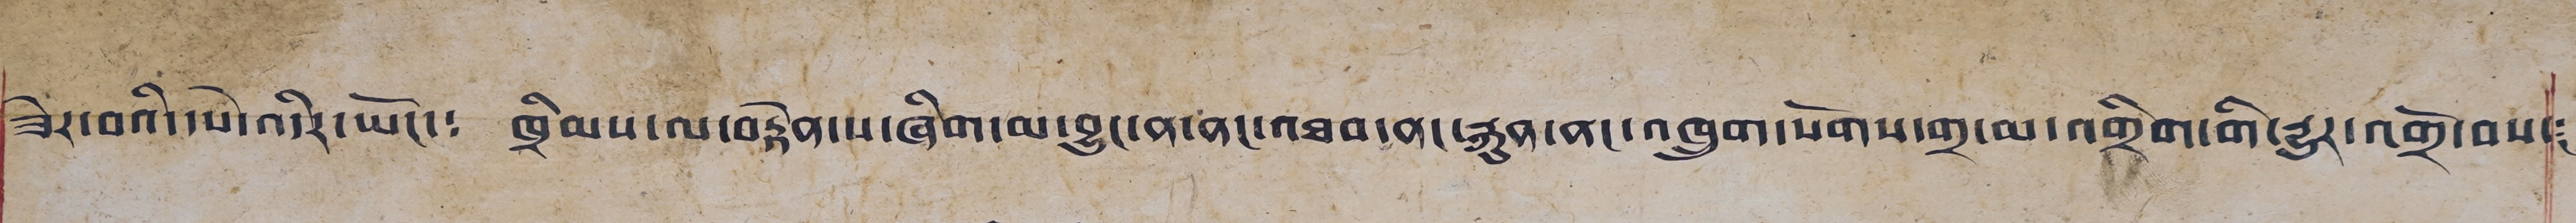ཟེར་བའི་དཔེ་འདིར་ཡོང་༴ ཁྲིམས་ལ་བརྟེན་པ་ཞིག་མ་བྱུང་ན་ནང་འཐབ་ནང་འཁྲུག་སོགས་གྲ་མ་འགྲིག་གི་རྒྱུར་འགྲོ་བས་༴
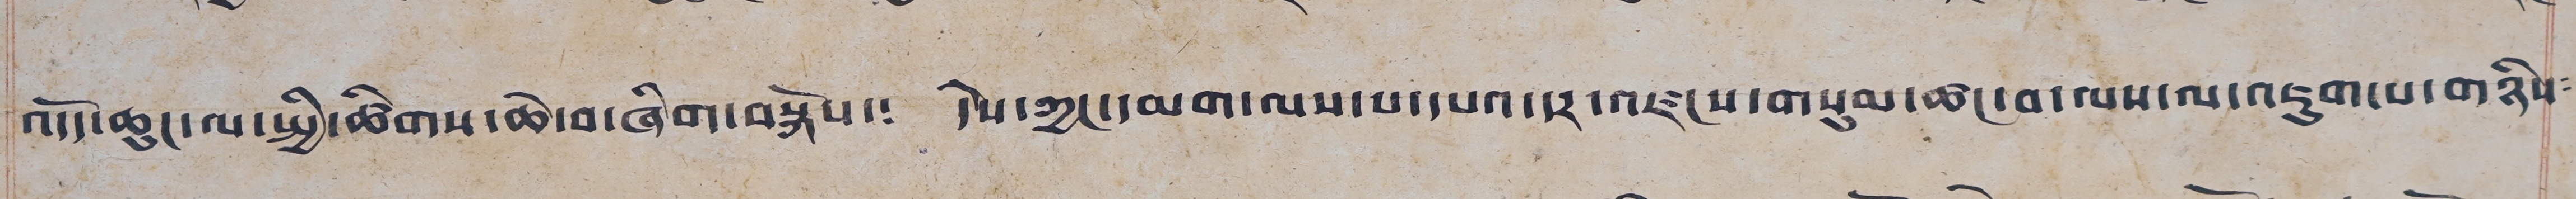འདོད་ཆུང་ལ་སྤྱི་ཚིགས་ཆེ་བ་ཞིག་བསྐོས་༴ དེས་ཀྱང་དམག་ལས་པ་དཔའ་དར་འཛངས་གསུམ་ཚང་བ་ལས་ལ་འཇུག་པ་གཉིས༴
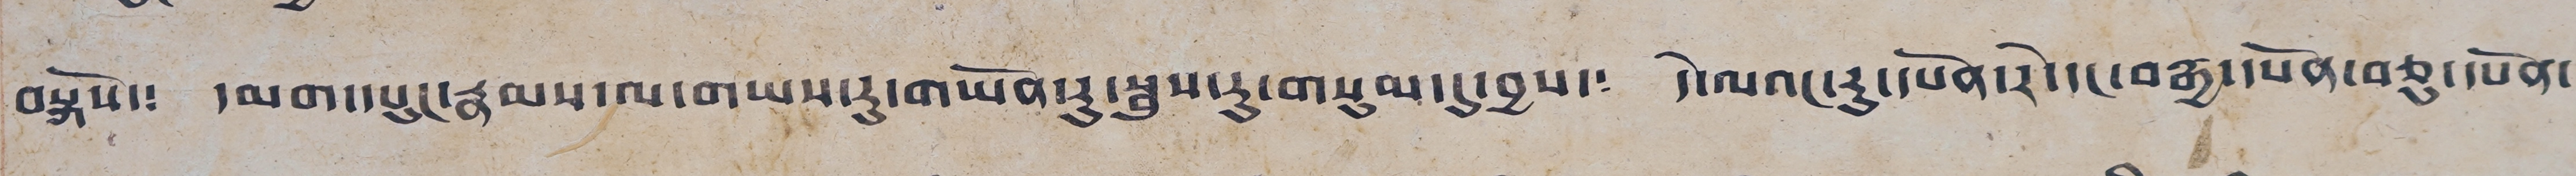བསྐོས་༴ དམག་དཔུང་རྣམས་ལ་གཡས་རུ་གཡོན་རུ་སྦུས་རུ་གསུམ་དུ་བྱས་༴ དེ་ལའང་རུ་དཔོན་རེ་དང་བརྒྱ་དཔོན་བཅུ་དཔོན་
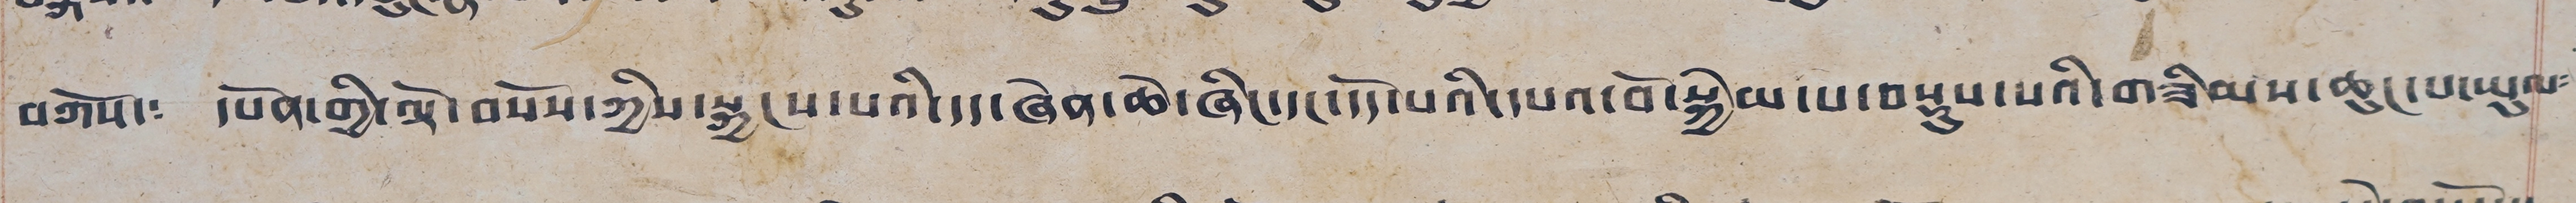བཀོས་༴ དཔོན་གྱི་ལྟེ་བསོས་ཀྱས་སྐྱངས་པའི་དད་ཞེན་ཆེ་ཞིང་དང་དོད་པའི་དཔའ་བོ་སྐྱེམ་པ་བསྡུས་པའི་གཟིམས་ཆུང་པ་ཡུལ༴
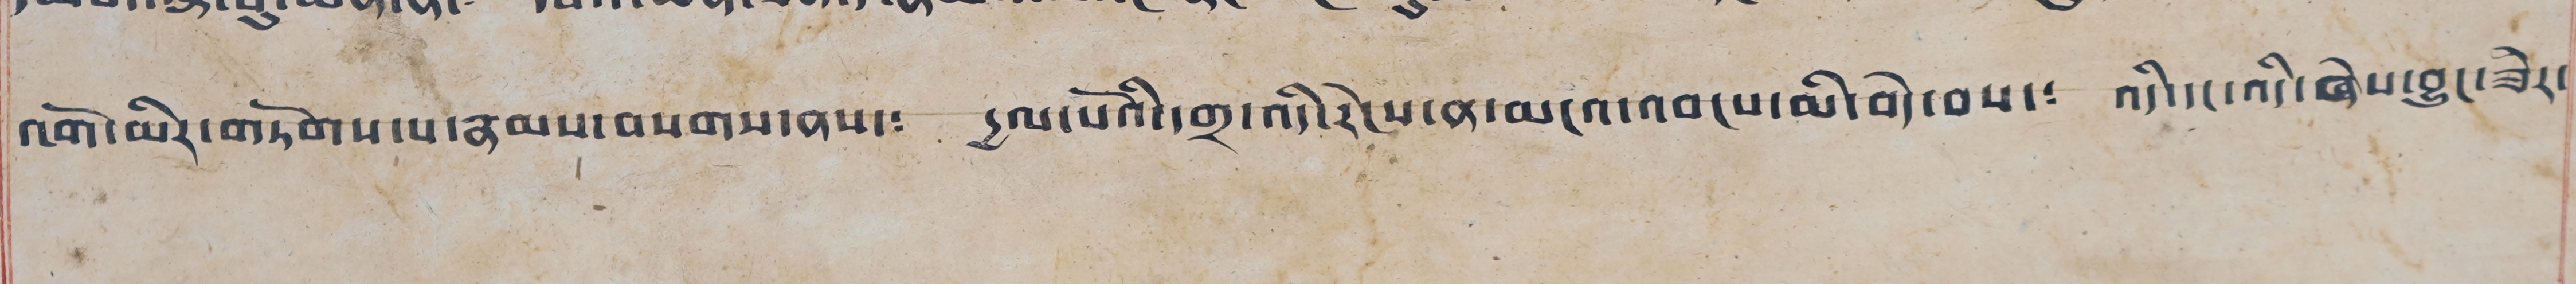འགོ་མིར་གཏོགས་པ་རྣམས་བསགས་ནས་༴ དྱལ་པོའི་དགྲ་འདི་རེངས་ན་མངའ་འབངས་མི་བདེ་བས་། འདི་དང་འདི་ཞེས་བྱུང་ཟེར་
